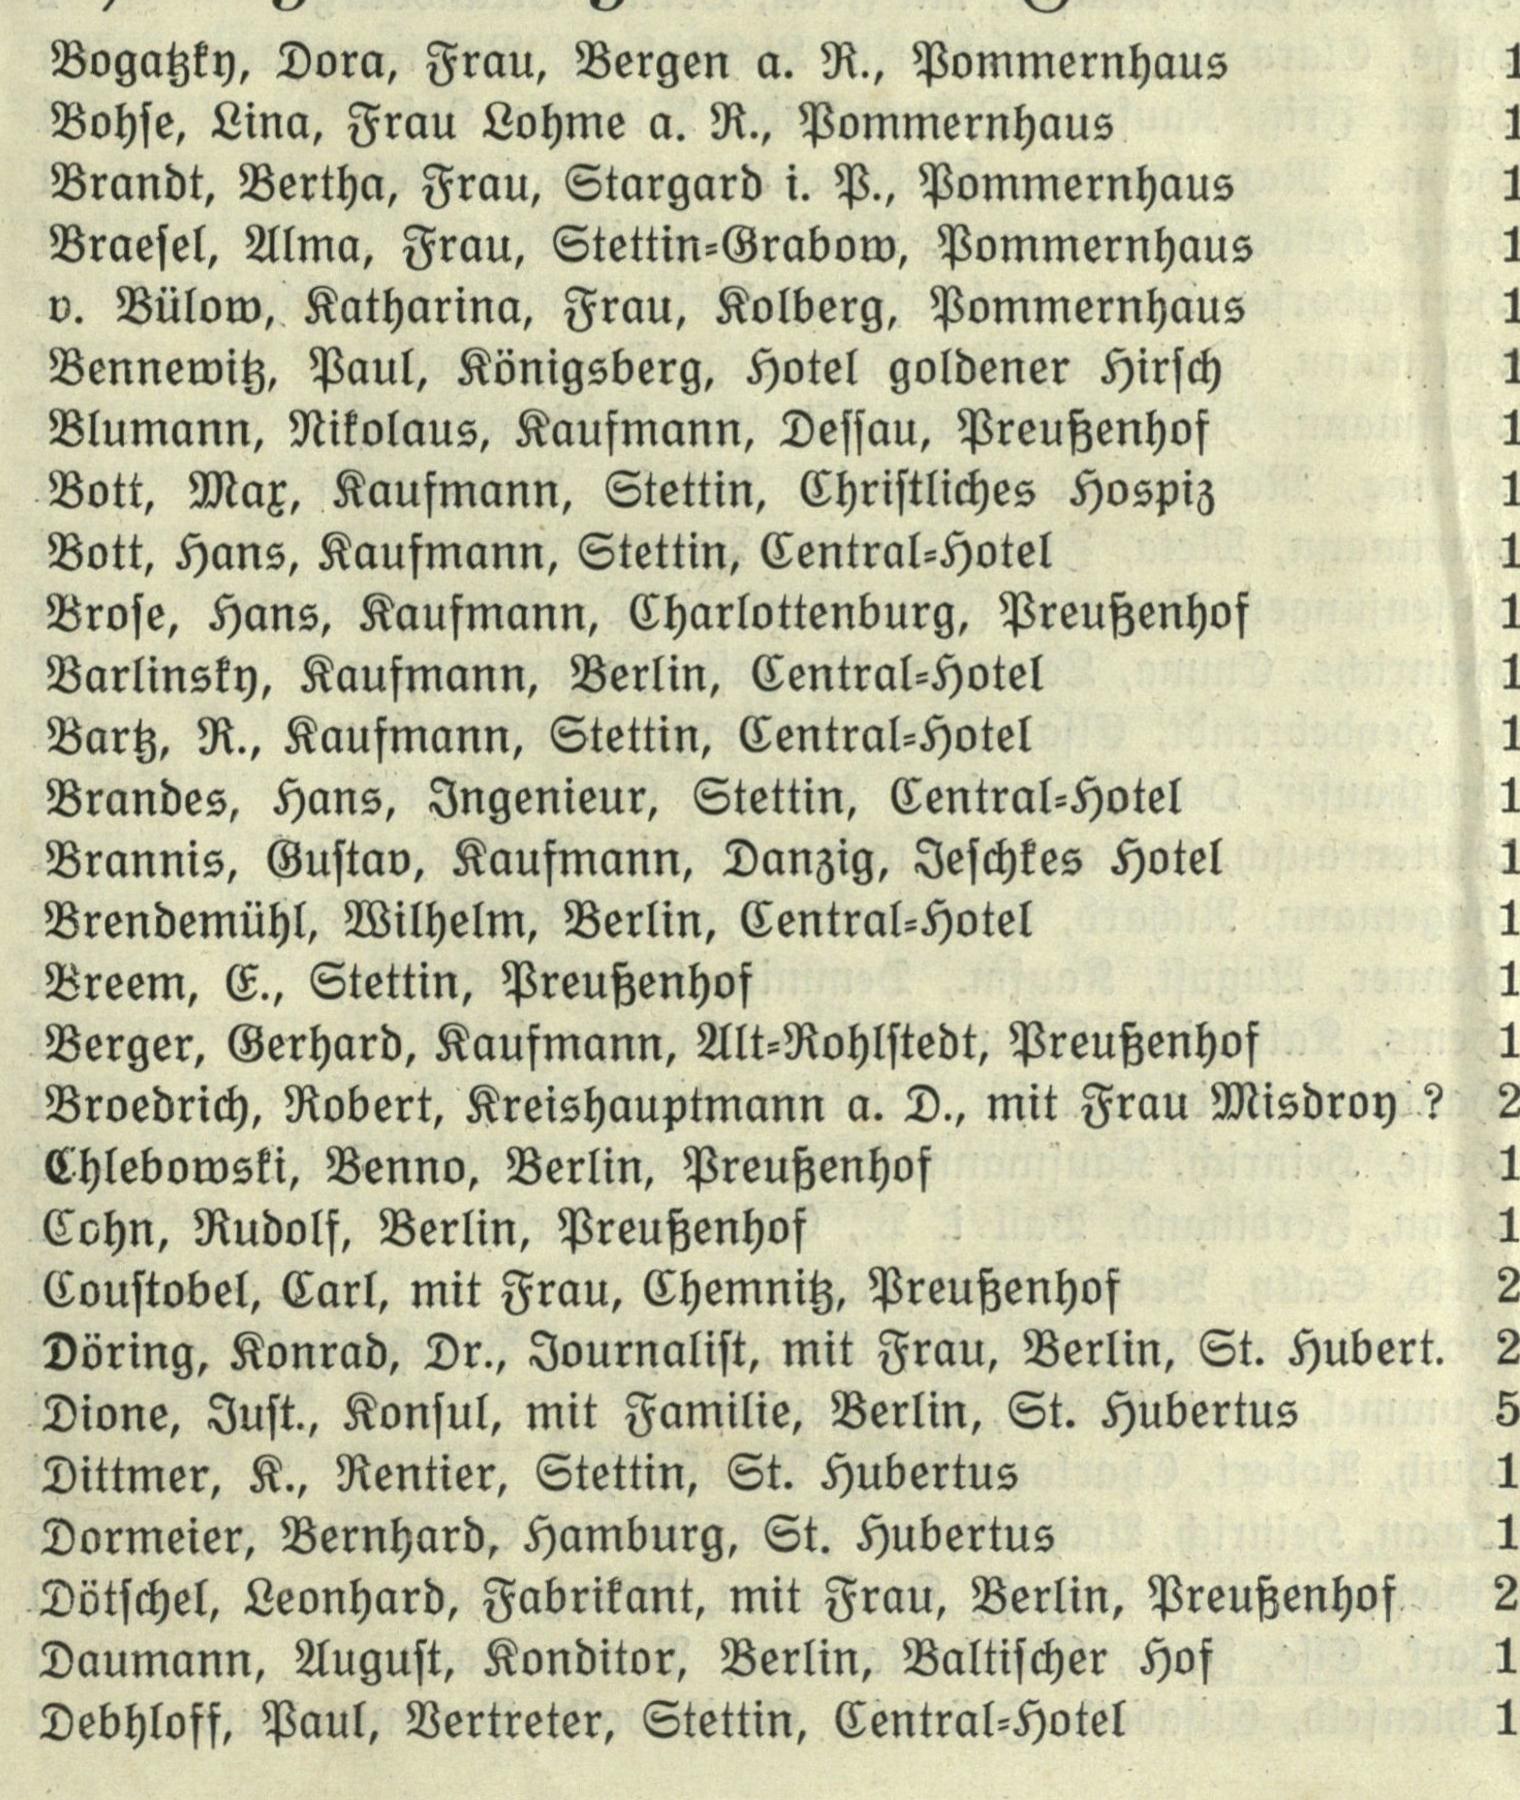Bogatzky, Dora, Frau, Bergen a. R., Pommernhaus | 1
Bohse, Lina, Frau Lohme a. R., Pommernhaus | 1
Brandt, Bertha, Frau, Stargard i. P., Pommernhaus | 1
Braesel, Alma, Frau, Stettin=Grabow, Pommernhaus | 1
v. Bülow, Katharina, Frau, Kolberg, Pommernhaus | 1
Bennewitz, Paul, Königsberg, Hotel goldener Hirsch | 1
Blumann, Nikolaus, Kaufmann, Dessau, Preußenhof | 1
Bott, Max, Kaufmann, Stettin, Christliches Hospiz | 1
Bott, Hans, Kaufmann, Stettin, Central=Hotel | 1
Brose, Hans, Kaufmann, Charlottenburg, Preußenhof | 1
Barlinsky, Kaufmann, Berlin, Central=Hotel | 1
Bartz, R., Kaufmann, Stettin, Central=Hotel | 1
Brandes, Hans, Ingenieur, Stettin, Central=Hotel | 1
Brannis, Gustav, Kaufmann, Danzig, Jeschkes Hotel | 1
Brendemühl, Wilhelm, Berlin, Central=Hotel | 1
Breem, E., Stettin, Preußenhof | 1
Berger, Gerhard, Kaufmann, Alt=Kohlstedt, Preußenhof | 1
Broedrich, Robert, Kreishauptmann a. D., mit Frau Misdroy ? | 2
Chlebowski, Benno, Berlin, Preußenhof | 1
Cohn, Rudolf, Berlin, Preußenhof | 1
Coustobel, Carl, mit Frau, Chemnitz, Preußenhof | 2
Döring, Konrad, Dr., Journalist, mit Frau, Berlin, St. Hubert. | 2
Dione, Just., Konsul, mit Familie, Berlin, St. Hubertus | 5
Dittmer, K., Rentier, Stettin, St. Hubertus | 1
Dormeier, Bernhard, Hamburg, St. Hubertus | 1
Dötschel, Leonhard, Fabrikant, mit Frau, Berlin, Preußenhof | 2
Daumann, August, Konditor, Berlin, Baltischer Hof | 1
Debhloff, Paul, Vertreter, Stettin, Central=Hotel | 1
